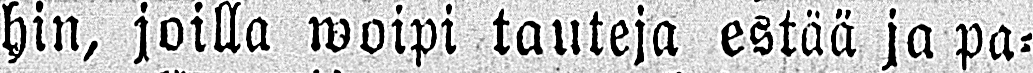hin, joilla woipi tauteja estää ja pa-
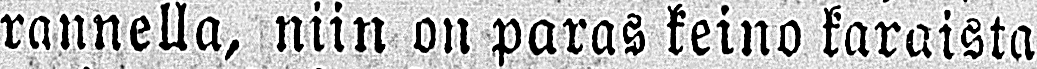rannella, niin on paras keino karaista
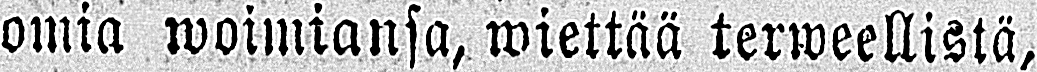omia woimiansa, wiettää terweellistä.
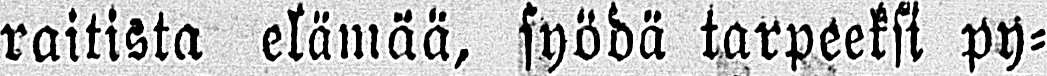raitista elämää, syödä tarpeeksi py-
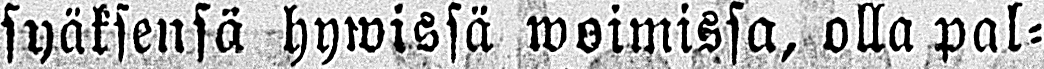syäksensä hywissä woimissa, olla pal-
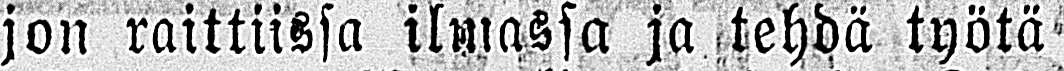jon raittiissa ilmassa ja tehdä työtä
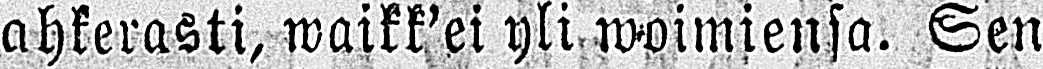ahkerasti, waikk'ei yli woimiensa. Sen
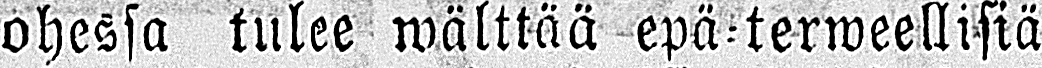ohessa tulee wälttää epä terweellisiä
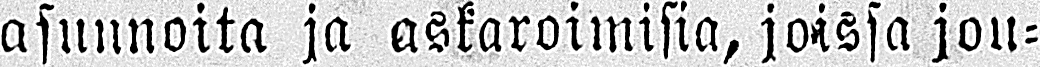asunnoita ja askaroimisia, joissa jou-
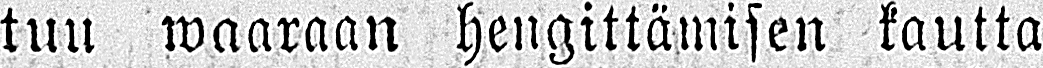tuu waaraan hengittämisen kautta
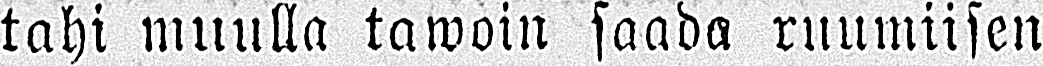tahi muulla tawoin saada ruumiisen
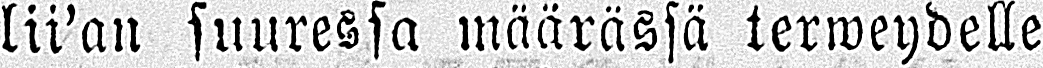lii'an suuressa määrässä terweydelle
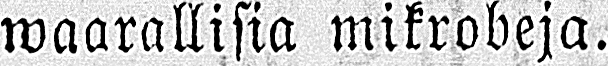waarallisia mikrobeja.
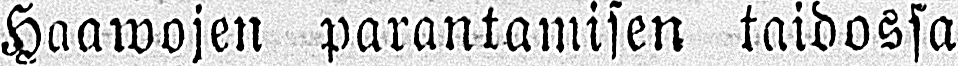Haawojen parantamisen taidossa
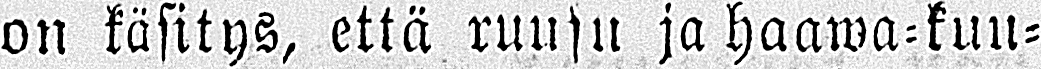on käsitys, että ruusu ja haawa-kuu-
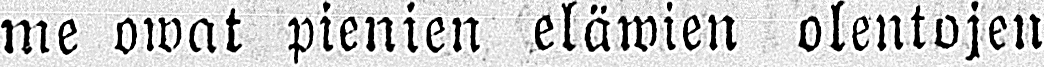me owat pienien eläwien olentojen
